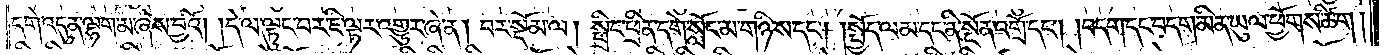དགེ་འདུན་ལྷག་མ་ཞེས་བྱའོ། །དེ་ལ་ལྟུང་བར་ཇི་ལྟར་འགྱུར་ཞེ་ན། བར་སྡོམ་ལ། སྤྲིང་ཕྲིན་དགེ་སློང་མ་གཉིས་དང༌། །སྤྱོད་ལམ་དང་ནི་སྔོན་འགྲོ་དང༌། །བདག་དང་བདག་མིན་ཡུལ་ཕྱོགས་ཚིག།
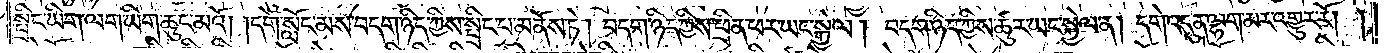སྤྲིང་ཡིག་ལག་ཡིག་ཆུང་མའོ། །དགེ་སློང་མས་བདག་ཉིད་ཀྱིས་སྤྲིང་པ་མནོས་ཏེ། བདག་ཉིད་ཀྱིས་ཕྲིན་ཕར་ཡང་སྐྱེལ། བདག་ཉིད་ཀྱིས་ཚུར་ཡང་སྐྱེལ་ན། དགེ་འདུན་ལྷག་མར་འགྱུར་རོ། །
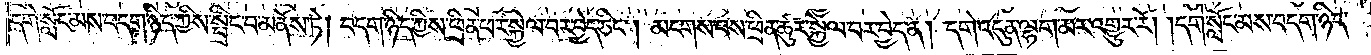དགེ་སློང་མས་བདག་ཉིད་ཀྱིས་སྤྲིང་བ་མནོས་ཏེ། བདག་ཉིད་ཀྱིས་ཕྲིན་ཕར་སྐྱེལ་བར་བྱེད་ཅིང༌། མངགས་པས་ཕྲིན་ཚུར་སྐྱེལ་བར་བྱེད་ན། དགེ་འདུན་ལྷག་མར་འགྱུར་རོ། །དགེ་སློང་མས་བདག་ཉིད་
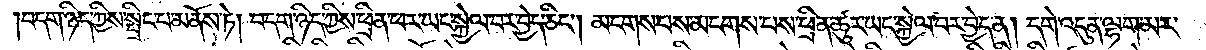བདག་ཉིད་ཀྱིས་སྤྲིང་པ་མནོས་ཏེ། བདག་ཉིད་ཀྱིས་ཕྲིན་ཕར་ཡང་སྐྱེལ་བར་བྱེད་ཅིང༌། མངགས་པས་མངགས་པས་ཕྲིན་ཚུར་ཡང་སྐྱེལ་བར་བྱེད་ན། དགེ་འདུན་ལྷག་མར་
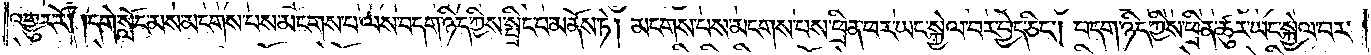འགྱུར་རོ། །དགེ་སློང་མས་མངགས་པས་མངགས་པ་ལས་བདག་ཉིད་ཀྱིས་སྤྲིང་པ་མནོས་ཏེ། མངགས་པས་མངགས་པས་ཕྲིན་ཕར་ཡང་སྐྱེལ་བར་བྱེད་ཅིང༌། བདག་ཉིད་ཀྱིས་ཕྲིན་ཚུར་ཡང་སྐྱེལ་བར་
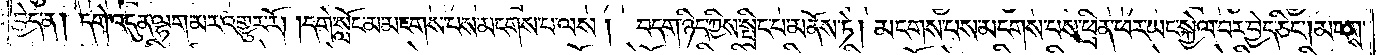བྱེད་ན། དགེ་འདུན་ལྷག་མར་འགྱུར་རོ། །དགེ་སློང་མ་མངགས་པས་མངགས་པ་ལས། བདག་ཉིད་ཀྱིས་སྤྲིང་པ་མནོས་ཏེ། མངགས་པས་མངགས་པས་ཕྲིན་ཕར་ཡང་སྐྱེལ་བར་བྱེད་ཅིང༌། མངགས་
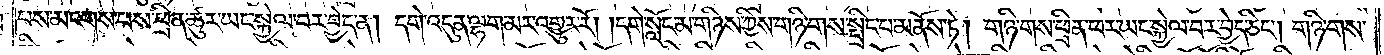པས་མངགས་པས་ཕྲིན་ཚུར་ཡང་སྐྱེལ་བར་བྱེད་ན། དགེ་འདུན་ལྷག་མར་འགྱུར་རོ། །དགེ་སློང་མ་གཉིས་ཀྱིས་གཉི་གས་སྤྲིང་པ་མནོས་ཏེ། གཉི་གས་ཕྲིན་ཕར་ཡང་སྐྱེལ་བར་བྱེད་ཅིང༌། གཉི་གས་
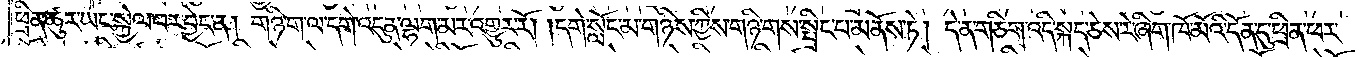ཕྲིན་ཚུར་ཡང་སྐྱེལ་བར་བྱེད་ན། གཉི་ག་ལ་དགེ་འདུན་ལྷག་མར་འགྱུར་རོ། །དགེ་སློང་མ་གཉིས་ཀྱིས་གཉི་གས་སྤྲིང་པ་མནོས་ཏེ། དེ་ན་གཅིག་འདི་སྐད་ཅེས་རེ་ཞིག་ཁོ་མོའི་དོན་དུ་ཕྲིན་ཕར་
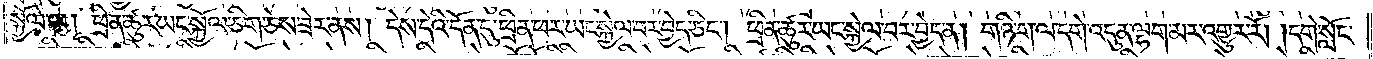སྐྱོལ་ལ། ཕྲིན་ཚུར་ཡང་སྐྱོལ་ཅིག་ཅེས་ཟེར་ནས། དེས་དེའི་དོན་དུ་ཕྲིན་ཕར་ཡང་སྐྱེལ་བར་བྱེད་ཅིང༌། ཕྲིན་ཚུར་ཡང་སྐྱེལ་བར་བྱེད་ན། གཉི་ག་ལ་དགེ་འདུན་ལྷག་མར་འགྱུར་རོ། །དགེ་སློང་
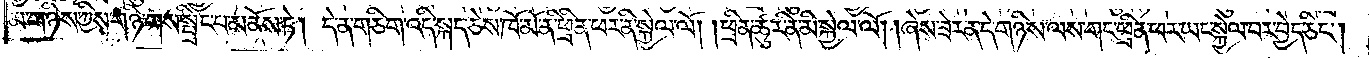མ་གཉིས་ཀྱིས་གཉི་གས་སྤྲིང་པ་མནོས་ཏེ། དེ་ན་གཅིག་འདི་སྐད་ཅེས་ཁོ་མོ་ནི་ཕྲིན་ཕར་ནི་སྐྱེལ་ལོ། །ཕྲིན་ཚུར་ནི་མི་སྐྱེལ་ལོ། །ཞེས་ཟེར་ན་དེ་གཉིས་ལས་གང་ཕྲིན་ཕར་ཡང་སྐྱེལ་བར་བྱེད་ཅིང༌།
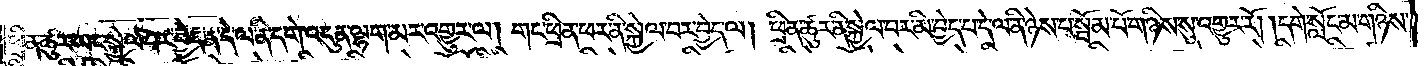ཕྲིན་ཚུར་ཡང་སྐྱེལ་བར་བྱེད་ན་དེ་ལ་ནི་དགེ་འདུན་ལྷག་མར་འགྱུར་ལ། གང་ཕྲིན་ཕར་ནི་སྐྱེལ་བར་བྱེད་ལ། ཕྲིན་ཚུར་ནི་སྐྱེལ་བར་མི་བྱེད་པ་དེ་ལ་ནི་ཉེས་པ་སྦོམ་པོ་གཉིས་སུ་འགྱུར་རོ། །དགེ་སློང་མ་གཉིས་
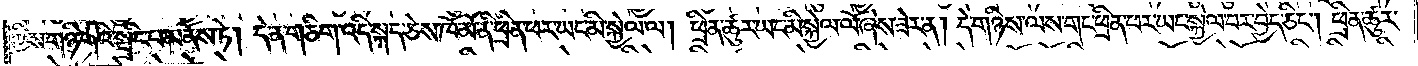ཀྱིས་གཉི་གའི་སྤྲིང་པ་མནོས་ཏེ། དེ་ན་གཅིག་འདི་སྐད་ཅེས་ཁོ་མོ་ནི་ཕྲིན་ཕར་ཡང་མི་སྐྱེལ་ལ། ཕྲིན་ཚུར་ཡང་མི་སྐྱེལ་ལོ་ཞེས་ཟེར་ན། དེ་གཉིས་ལས་གང་ཕྲིན་ཕར་ཡང་སྐྱེལ་བར་བྱེད་ཅིང༌། ཕྲིན་ཚུར་
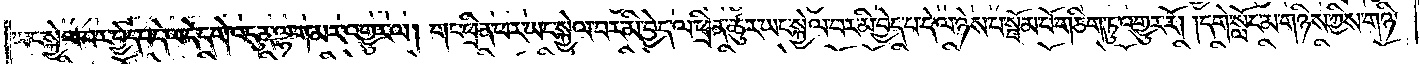ཡང་སྐྱེལ་བར་བྱེད་པ་དེ་ལ་དེ་དགེ་འདུན་ལྷག་མར་འགྱུར་ལ། གང་ཕྲིན་ཕར་ཡང་སྐྱེལ་བར་མི་བྱེད་ལ་ཕྲིན་ཚུར་ཡང་སྐྱེལ་བར་མི་བྱེད་པ་དེ་ལ་ཉེས་པ་སྦོམ་པོ་གཅིག་ཏུ་འགྱུར་རོ། །དགེ་སློང་མ་གཉིས་ཀྱིས་གཉི་
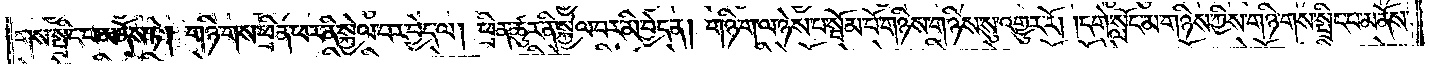གས་སྤྲིང་པ་མནོས་ཏེ། གཉི་གས་ཕྲིན་ཕར་ནི་སྐྱེལ་བར་བྱེད་ལ། ཕྲིན་ཚུར་ནི་སྐྱེལ་བར་མི་བྱེད་ན། གཉི་ག་ལ་ཉེས་པ་སྦོམ་པོ་གཉིས་གཉིས་སུ་འགྱུར་རོ། །དགེ་སློང་མ་གཉིས་ཀྱིས་གཉིས་སྤྲིང་པ་མནོས་
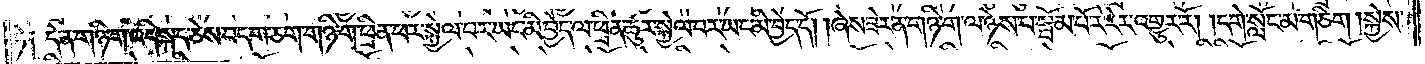ཏེ༑ དེ་ན་གཉི་ག་འདི་སྐད་ཅེས་བདག་ཅག་གཉི་ག་ཕྲིན་ཕར་སྐྱེལ་བར་ཡང་མི་བྱེད་ལ་ཕྲིན་ཚུར་སྐྱེལ་བར་ཡང་མི་བྱེད་དོ། །ཞེས་ཟེར་ན་གཉི་ག་ལ་ཉེས་པ་སྦོམ་པོ་རེ་རེ་འགྱུར་རོ། །དགེ་སློང་མ་གཅིག །སྐྱེས་
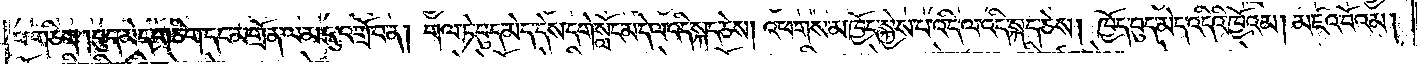པ་གཅིག །བུད་མེད་གཅིག་དང་མགྲོན་ལམ་དུ་འགྲོ་བ་ན། གལ་ཏེ་བུད་མེད་དེས་དགེ་སློང་མ་དེ་ལ་འདི་སྐད་ཅེས། འཕགས་མ་ཁྱོད་སྐྱེས་པ་འདི་ལ་འདི་སྐད་ཅེས། ཁྱོད་བུད་མེད་འདིའི་ཁྱོའམ། མཛའ་བོའམ།
